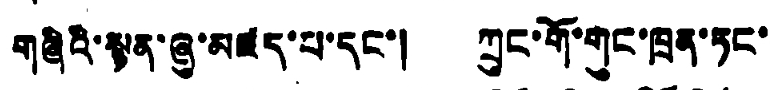གཞིའི་སྙན་ཞུ་མཛད་པ་དང་། ཀྲུང་གོ་གུང་ཁྲན་ཏང་
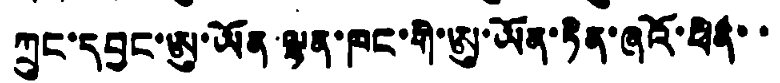ཀྲུང་དབྱང་ཨུ་ཡོན་ལྷན་ཁང་གི་ཨུ་ཡོན་ཏིན་ཞའོ་ཕིན་་
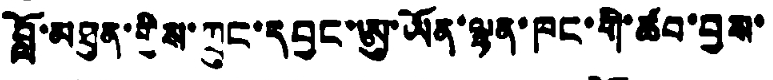བློ་མཐུན་གྱིས་ཀྲུང་དབྱང་ཨུ་ཡོན་ལྷན་ཁང་གི་ཚབ་བྱས་
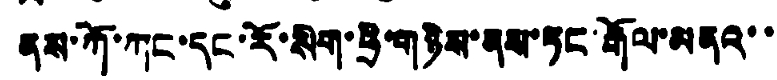ནས་ཀོ་ཀང་དང་རོ་སིག་ཧྲི་གཉིས་ནས་ཏང་རྒོལ་མནའ་་
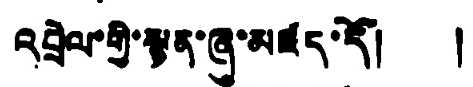འབྲེལ་གྱི་སྙན་ཞུ་མཛད་དོ། །
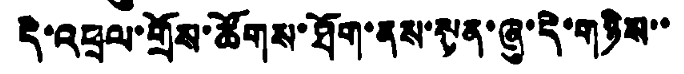དེ་འཕྲལ་གྲོས་ཚོགས་ཐོག་ནས་སྙན་ཞུ་དེ་གཉིས་་
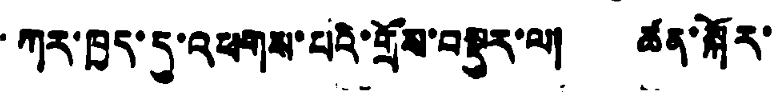ཀར་ཁྱད་དུ་འཕགས་པའི་གྲོས་བསྡུར་ལ། ཚན་སྐོར་
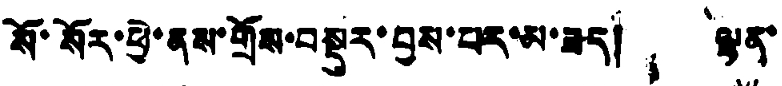སོ་སོར་ཕྱེ་ནས་གྲོས་བསྡུར་བྱས་པར་མ་ཟད། ལྷན་
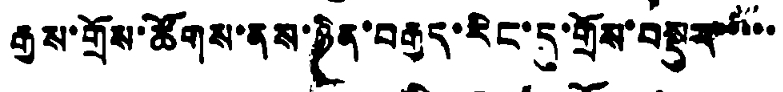རྒྱས་གྲོས་ཚོགས་ནས་ཉིན་བརྒྱད་རིང་དུ་གྲོས་བསྡུར་་་
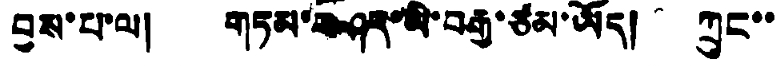བྱས་པ་ལ། གཏམ་བཤད་མི་བརྒྱ་ཙམ་ཡོད། ཀྲུང་་
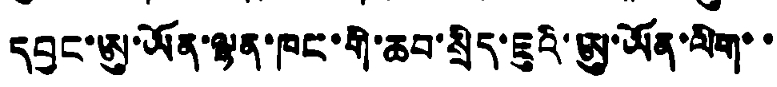དབྱང་ཨུ་ཡོན་ལྷན་ཁང་གི་ཆབ་སྲིད་ཇུའི་ཨུ་ཡོན་ལིག་་
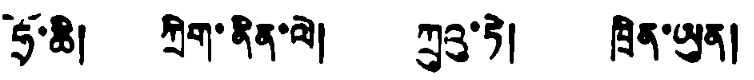ཧྲོ་ཆི། ཀྲིག་ནིན་ལེ། ཀྲུའུ་ཏེ། ཁྲིན་ཡུན།
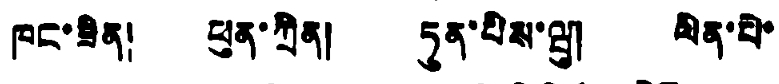ཁང་ཟིན། ཕུན་ཀྲིན། ཏུན་པིས་ཝུ། ལིན་པེ་
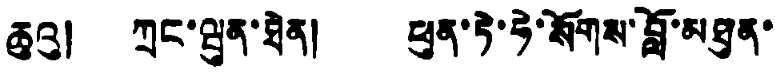ཆུའུ། ཀྲང་ཝུན་ཐེན། ཕུན་ཏེ་ཧེ་སོགས་བློ་མཐུན་
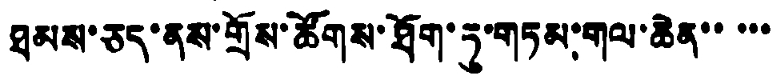ཐམས་ཅད་ནས་གྲོས་ཚོགས་ཐོག་ཏུ་གཏམ་གལ་ཆེན་་་་་
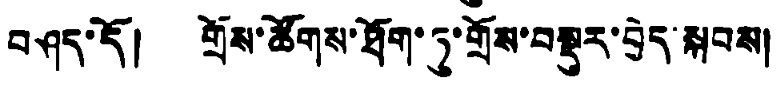བཤད་དོ། གྲོས་ཚོགས་ཐོག་ཏུ་གྲོས་བསྡུར་བྱེད་སྐབས།
